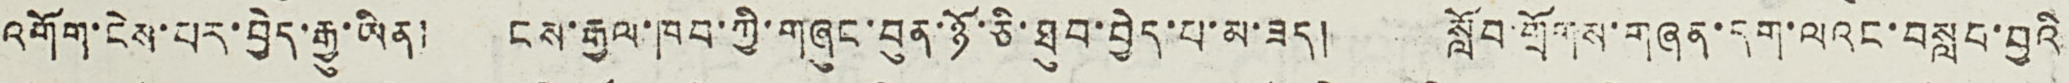འགོག་ངེས་པར་བྱེད་རྒྱུ་ཡོན། ངས་རྒྱལ་ཁབ་ཀྱི་གཞུང་བུན་ཉོ་ཅི་ཐུབ་བྱེད་པ་མ་ཟད། སློབ་གྲོགས་གཞན་དག་ལའང་བསླབ་བྱའི
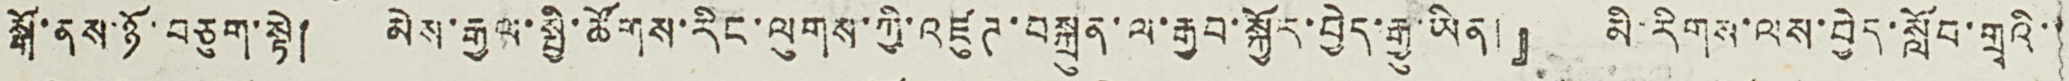སྒོ་ནས་ཉོ་བཅུག་སྟེ། མེས་རྒྱལ་སྤྱི་ཚོགས་རིང་ལུགས་ཀྱི་འཛུཊ་བསྐྲུན་ལ་རྒྱབ་སྐྱོར་བྱེད་རྒྱུ་ཡོན།』 མི་རིགས་ལས་བྱེད་སློབ་གྲྭའི་་
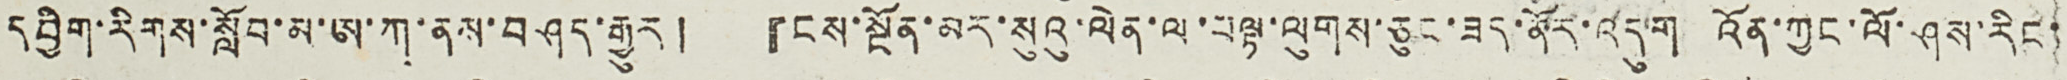དབྱིག་རིགས་སློབ་མ་ཨ་ཀ་ནས་བཤད་རྒྱུར། 『ངས་སྔོན་མར་སུའུ་ལེན་ལ་བལྟ་ལུགས་ཅུང་ཟད་མོར་འདུག འོན་ཀྱང་ལོ་ཤས་རིང་
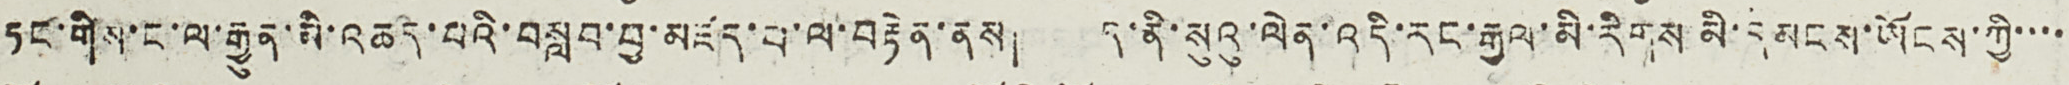ཏང་གིས་ང་ལ་རྒྱུན་མི་འཆད་པའི་བསླབ་བྱ་མཛད་པ་ལ་བརྟེན་ནས། ད་ནི་སུའུ་ལེན་འདི་རང་རྒྱལ་མི་རིགས་མི་དམངས་ཡོངས་ཀྱི་་་་
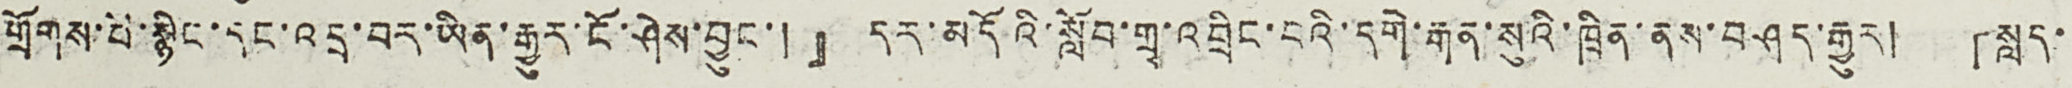གྲོགས་པོ་སྙིང་དང་འདྲ་བར་ཡིན་རྒྱུར་ངོ་ཤེས་བྱུང་།』 དར་མདོའི་སློབ་གྲྭ་འབྲིང་བའི་དགེ་རྒན་སུའི་ཁྲིན་ནས་བཤད་རྒྱུར། 「སླད་
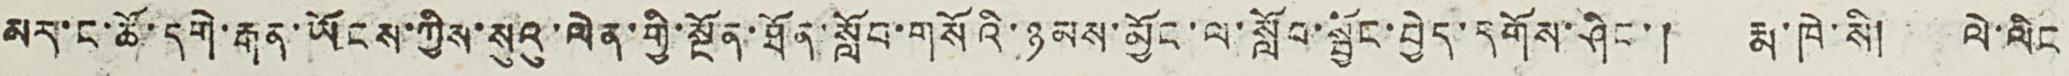མར་ང་ཚོ་དགེ་རྒན་ཡོངས་ཀྱིས་སུའུ་ལེན་གྱི་སྔོན་ཐོན་སློབ་གསོའི་ཉམས་མྱོང་ལ་སློབ་སྦྱོང་བྱེད་དགོས་ཤིང་། རྨ་ཁེ་སི། ལེ་ལིང
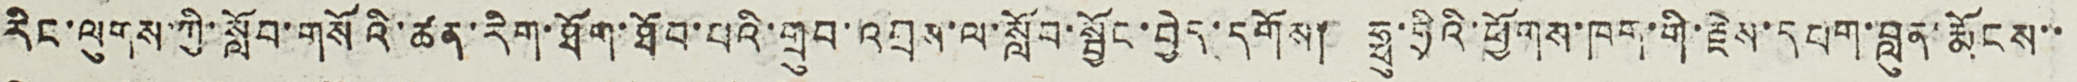རིང་ལུགས་ཀྱི་སློབ་གསོའི་ཚན་རིག་ཐོག་ཐོབ་པའི་གྲུབ་འབྲས་ལ་སློབ་སྦྱོང་བྱེད་དགོས། ཧྥུ་ཧྲིའི་ཕྱོགས་ཁག་གི་རྗེས་དཔག་བླུན་རྨོངས་་
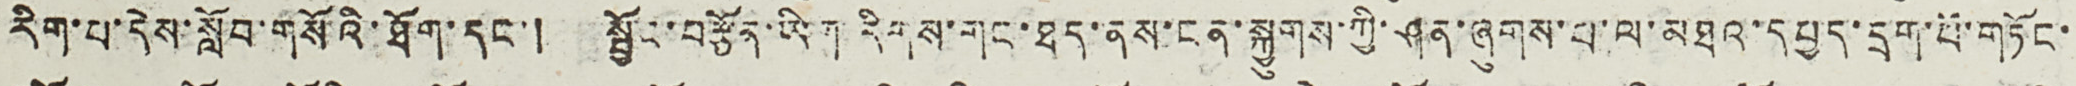རིག་པ་དེས་སློབ་གསོའི་ཐོག་དང་། སྦྱོང་བརྩོན་ཡིག་རིགས་གང་ཐད་ནས་ངན་སྐྱུགས་ཀྱི་ཤན་ཞུགས་པ་ལ་མཐའ་དཔྱད་དྲག་པོ་གཏོང་
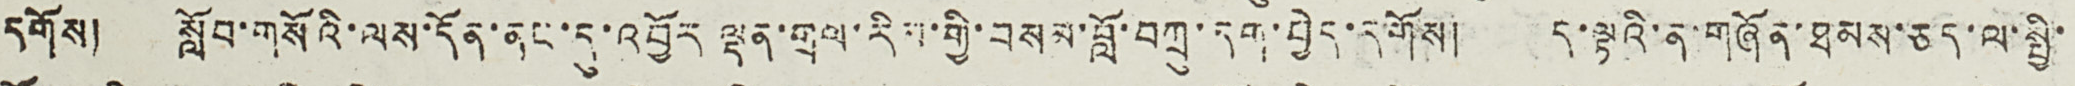དགོས། སློབ་གསོའི་ལས་དོན་ནང་དུ་འབྱོར ལྡན་གྲལ་རིམ་གྱི་བསམ་བློ་བཀྲུ་དག་བྱེད་དགོས། ད་ལྟའི་ན་གཞོན་ཐམས་ཅད་ལ་སྤྱི་
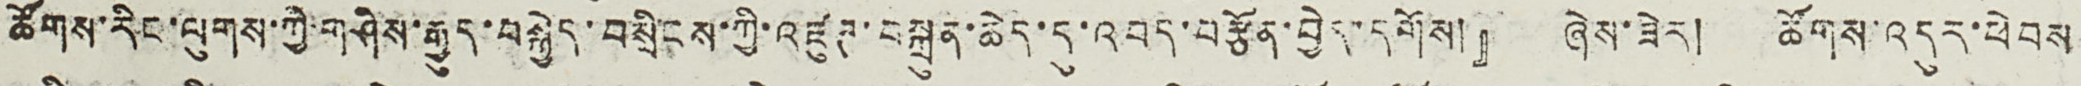ཚོགས་རིང་ལུགས་ཀྱི་གཤིས་རྒྱུད་བསྐྱེད་བསྲིངས་ཀྱི་འཛུཊ་བསྐྲུན་ཆེད་དུ་འབད་བརྩོན་བྱེད་དགོས།』 ཞེས་ཟེར། ཚོགས་འདུར་ཕེབས
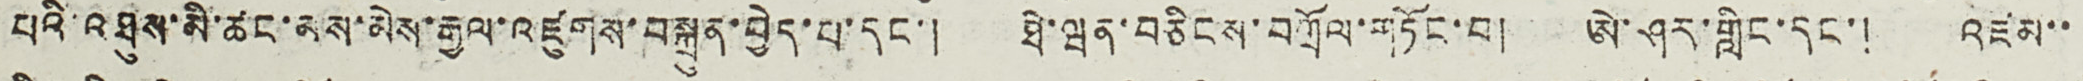པའི་འཐུས་མི་ཚང་མས་མེས་རྒྱལ་འཛུགས་བསྐྲུན་བྱེད་པ་དང་། ཐེ་ཝན་བཅིངས་བཀྲོལ་གཏོང་བ། ཨེ་ཤར་གླིང་དང་། འཛམ་་
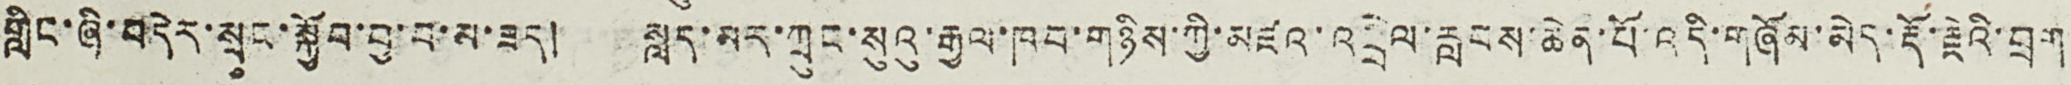གླིང་ཞི་བདེར་སྲུང་སྐྱོབ་བྱ་བ་མ་ཟད། སླད་མར་ཀྲུང་སུའུ་རྒྱལ་ཁབ་གཉིས་ཀྱི་མཛའ་འབྲེལ་རླངས་ཆེན་པོ་འདི་གཞོམ་མེད་རྡོ་རྗེའི་བྲག
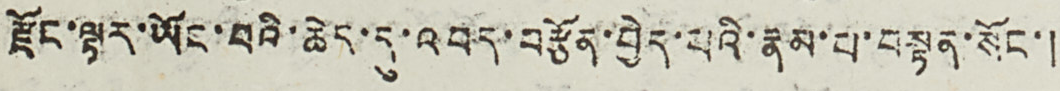རྫོང་ལྟར་ཡོང་བའི་ཆེད་དུ་འབད་བརྩོན་བྱེད་པའི་རྣམ་པ་བསྟན་སོང་།
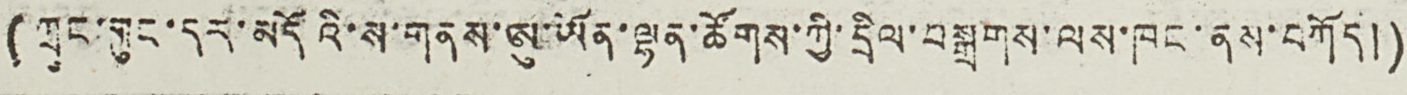(ཀྲུང་གུང་དར་མདོའི་ས་གནས་ཨུ་ཡོན་ལྷན་ཚོགས་ཀྱི་དྲིལ་བསྒྲགས་ལས་ཁང་ནས་བཀོད།)
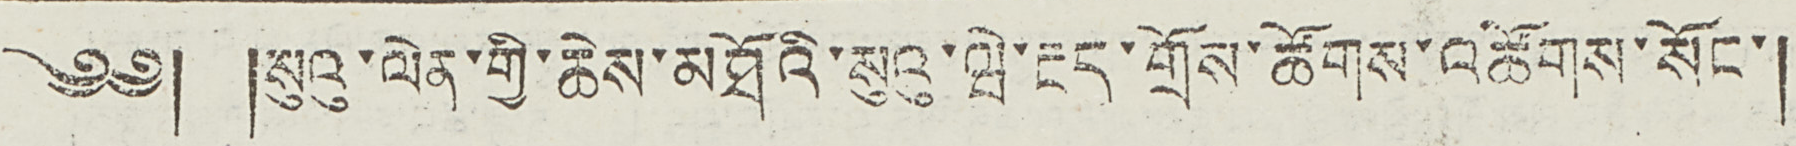༄༅། །སུའུ་ལེན་གྱི་ཆེས་མཐོའི་སུའུ་ཝེ་རྔད་གྲོས་ཚོགས་འཚོགས་སོང་།
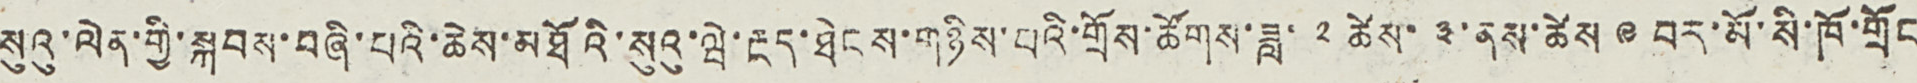སུའུ་ལེན་གྱི་སྐབས་བཞི་པའི་ཆེས་མཐོའི་སུའུ་ཝེ་རྔད་ཐེངས་གཉིས་པའི་གྲོས་ཚོགས་ཟླ་ ༢ ཚེས་ ༣་ ནས་ཚེས ༩ བར་མོ་སི་ཁོ་གྲོང
